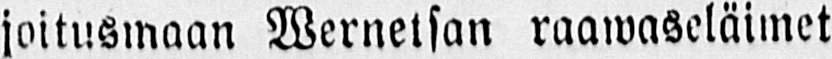joitusmaan Wernetsan raawaseläimet
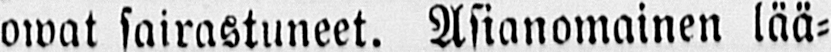owat sairastuneet. Asianomainen lää-
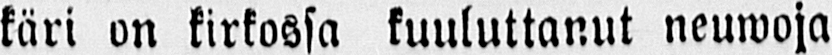käri on kirkossa kuuluttanut neuwoja
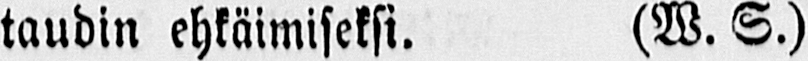taudin ehkäimiseksi. (W. S.)
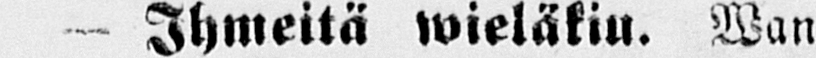— Ihmeitä wieläkiu. Wan-
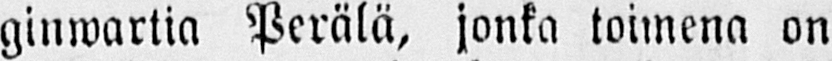ginwartia Perälä, jonka toimena on
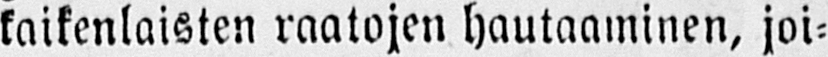kaikenlaisten raatojen hautaaminen, joi-
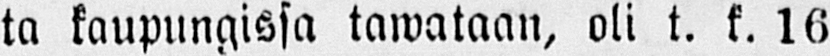ta kaupungissa tawataan, oli t. k. 16
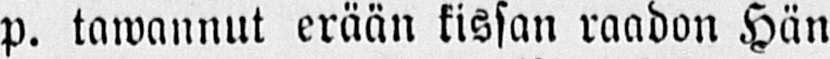p. tawannut erään kissan raadon Hän
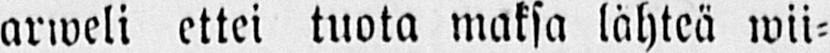arweli ettei tuota maksa lähteä wii-
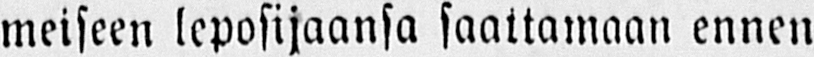meiseen leposijaansa saattamaan ennen-
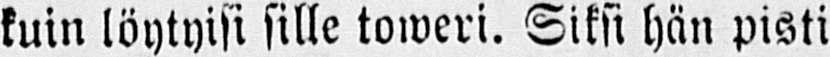kuin löytyisi sille toweri. Siksi hän pisti
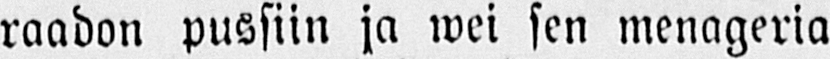raadon pussiin ja wei sen menageria
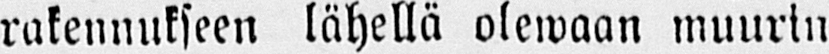rakennukseen lähellä olewaan muurin
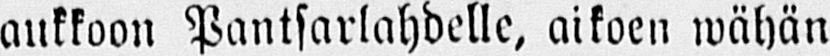aukkoon Pantsarlahdelle, aikoen wähän
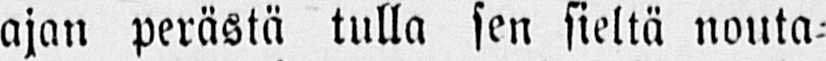ajan perästä tulla sen sieltä nouta-
